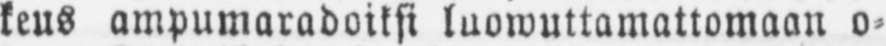keus ampumaradoiksi luowuttamattomaan o-
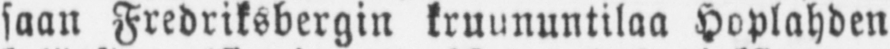saan Fredriksbergin kruununtilaa Hoplahden
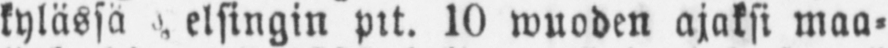kylässä Helsingin ptt. 10 wuoden ajaksi maa-
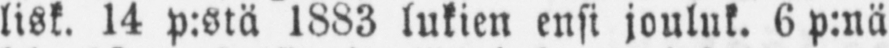lisk. 14 p:stä 1883 lukien ensi jouluk. 6 p:nä
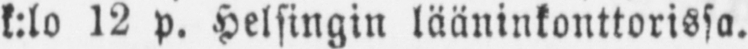k:lo 12 p. Helsingin lääninkonttorissa.
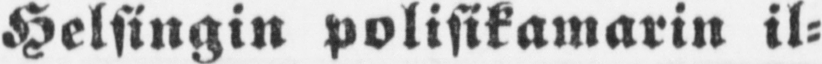Helsingin polisikamarin il-
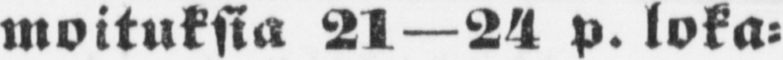moituksia 21—24 p. loka-
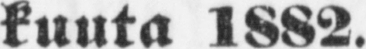kuuta 1882.
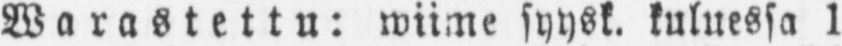Warastettu: wiime syysk. kuluessa 1
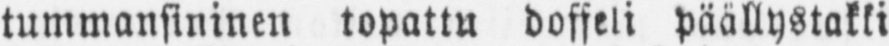tummansininen topattu doffeli päällystakki
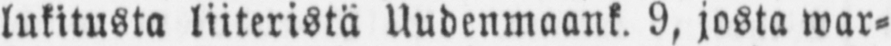lukitusta liiteristä Uudenmaank. 9, josta war-
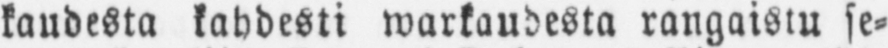kaudesta kahdesti warkaudesta rangaistu se-
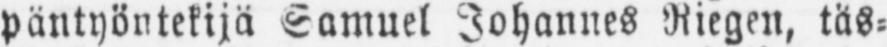päntyöntekijä Samuel Johannes Riegen, täs-
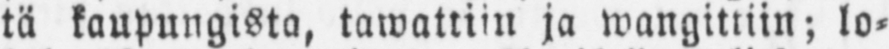tä kaupungista, tawattiin ja wangittiin; lo-
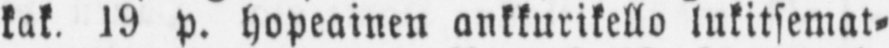kak. l9 p. hopeainen ankkurikello lukitsemat-
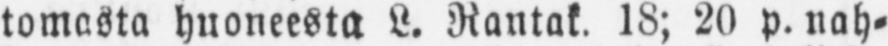tomasta huoneesta L. Rantak. 18; 20 p. nah-
